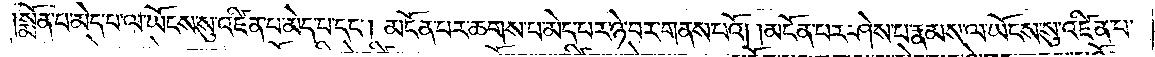སྨོན་པ་མེད་པ་ལ་ཡོངས་སུ་འཛིན་པ་མེད་པ་དང༌། མངོན་པར་ཆགས་པ་མེད་པར་ཉེ་བར་གནས་པའོ། །མངོན་པར་ཤེས་པ་རྣམས་ལ་ཡོངས་སུ་འཛིན་པ་
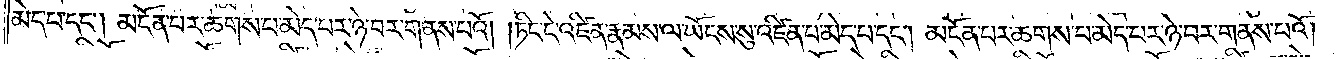མེད་པ་དང༌། མངོན་པར་ཆགས་པ་མེད་པར་ཉེ་བར་གནས་པའོ། །ཏིང་ངེ་འཛིན་རྣམས་ལ་ཡོངས་སུ་འཛིན་པ་མེད་པ་དང༌། མངོན་པར་ཆགས་པ་མེད་པར་ཉེ་བར་གནས་པའོ། །
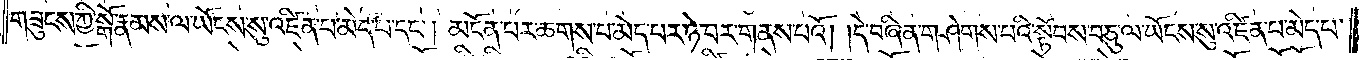གཟུངས་ཀྱི་སྒོ་རྣམས་ལ་ཡོངས་སུ་འཛིན་པ་མེད་པ་དང༌། མངོན་པར་ཆགས་པ་མེད་པར་ཉེ་བར་གནས་པའོ། །དེ་བཞིན་གཤེགས་པའི་སྟོབས་བཅུ་ལ་ཡོངས་སུ་འཛིན་པ་མེད་པ་
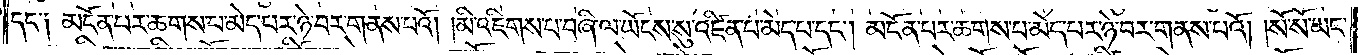དང༌། མངོན་པར་ཆགས་པ་མེད་པར་ཉེ་བར་གནས་པའོ། །མི་འཇིགས་པ་བཞི་ལ་ཡོངས་སུ་འཛིན་པ་མེད་པ་དང༌། མངོན་པར་ཆགས་པ་མེད་པར་ཉེ་བར་གནས་པའོ། །སོ་སོ་ཡང་
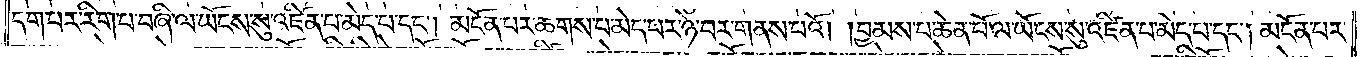དག་པར་རིག་པ་བཞི་ལ་ཡོངས་སུ་འཛིན་པ་མེད་པ་དང༌། མངོན་པར་ཆགས་པ་མེད་པར་ཉེ་བར་གནས་པའོ། །བྱམས་པ་ཆེན་པོ་ལ་ཡོངས་སུ་འཛིན་པ་མེད་པ་དང༌། མངོན་པར་
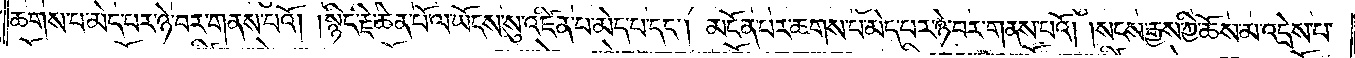ཆགས་པ་མེད་པར་ཉེ་བར་གནས་པའོ། །སྙིང་རྗེ་ཆེན་པོ་ལ་ཡོངས་སུ་འཛིན་པ་མེད་པ་དང༌། མངོན་པར་ཆགས་པ་མེད་པར་ཉེ་བར་གནས་པའོ། །སངས་རྒྱས་ཀྱི་ཆོས་མ་འདྲེས་པ་
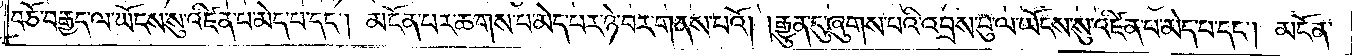བཅོ་བརྒྱད་ལ་ཡོངས་སུ་འཛིན་པ་མེད་པ་དང༌། མངོན་པར་ཆགས་པ་མེད་པར་ཉེ་བར་གནས་པའོ། །རྒྱུན་དུ་ཞུགས་པའི་འབྲས་བུ་ལ་ཡོངས་སུ་འཛིན་པ་མེད་པ་དང༌། མངོན་
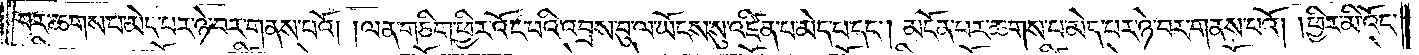བར་ཆགས་པ་མེད་པར་ཉེ་བར་གནས་པའོ། །ལན་གཅིག་ཕྱིར་འོང་བའི་འབྲས་བུ་ལ་ཡོངས་སུ་འཛིན་པ་མེད་པ་དང༌། མངོན་པར་ཆགས་པ་མེད་པར་ཉེ་བར་གནས་པའོ། །ཕྱིར་མི་འོང་
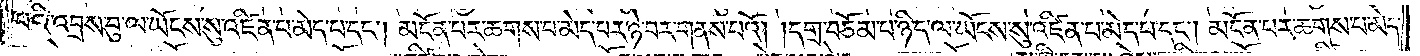བའི་འབྲས་བུ་ལ་ཡོངས་སུ་འཛིན་པ་མེད་པ་དང༌། མངོན་པར་ཆགས་པ་མེད་པར་ཉེ་བར་གནས་པའོ། །དགྲ་བཅོམ་པ་ཉིད་ལ་ཡོངས་སུ་འཛིན་པ་མེད་པ་དང༌། མངོན་པར་ཆགས་པ་མེད་
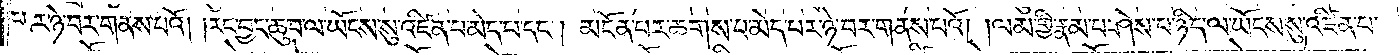པར་ཉེ་བར་གནས་པའོ། །རང་བྱང་ཆུབ་ལ་ཡོངས་སུ་འཛིན་པ་མེད་པ་དང༌། མངོན་པར་ཆགས་པ་མེད་པར་ཉེ་བར་གནས་པའོ། །ལམ་གྱི་རྣམ་པར་ཤེས་པ་ཉིད་ལ་ཡོངས་སུ་འཛིན་པ་
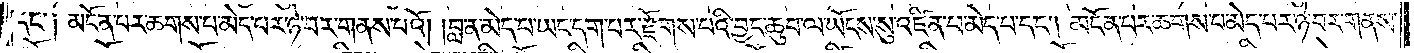དང༌༑ མངོན་པར་ཆགས་པ་མེད་པར་ཉེ་བར་གནས་པའོ། །བླ་ན་མེད་པ་ཡང་དག་པར་རྫོགས་པའི་བྱང་ཆུབ་ལ་ཡོངས་སུ་འཛིན་པ་མེད་པ་དང༌། མངོན་པར་ཆགས་པ་མེད་པར་ཉེ་བར་གནས་
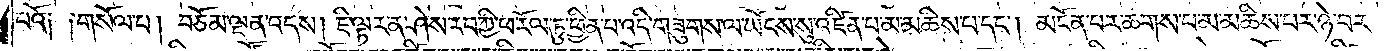པའོ༑ ༑གསོལ་པ། བཅོམ་ལྡན་འདས། ཇི་ལྟར་ན་ཤེས་རབ་ཀྱི་ཕ་རོལ་ཏུ་ཕྱིན་པ་འདི་གཟུགས་ལ་ཡོངས་སུ་འཛིན་པ་མ་མཆིས་པ་དང༌། མངོན་པར་ཆགས་པ་མ་མཆིས་པར་ཉེ་བར་
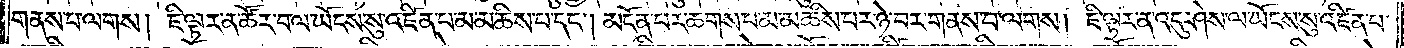གནས་པ་ལགས། ཇི་ལྟར་ན་ཚོར་བ་ལ་ཡོངས་སུ་འཛིན་པ་མ་མཆིས་པ་དང༌། མངོན་པར་ཆགས་པ་མ་མཆིས་པར་ཉེ་བར་གནས་པ་ལགས། ཇི་ལྟར་ན་འདུ་ཤེས་ལ་ཡོངས་སུ་འཛིན་པ་
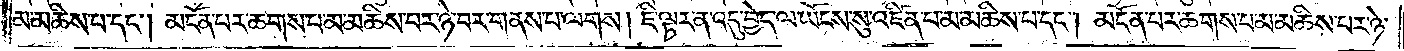མ་མཆིས་པ་དང༌། མངོན་པར་ཆགས་པ་མ་མཆིས་པར་ཉེ་བར་གནས་པ་ལགས། ཇི་ལྟར་ན་འདུ་བྱེད་ལ་ཡོངས་སུ་འཛིན་པ་མ་མཆིས་པ་དང༌། མངོན་པར་ཆགས་པ་མ་མཆིས་པར་ཉེ་
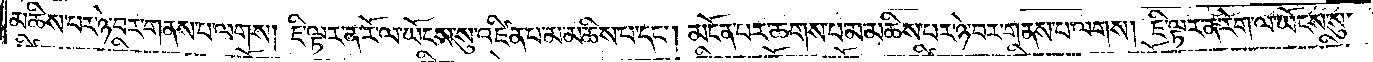མཆིས་པར་ཉེ་བར་གནས་པ་ལགས། ཇི་ལྟར་ན་རོ་ལ་ཡོངས་སུ་འཛིན་པ་མ་མཆིས་པ་དང༌། མངོན་པར་ཆགས་པ་མ་མཆིས་པར་ཉེ་བར་གནས་པ་ལགས། ཇི་ལྟར་ན་རེག་ལ་ཡོངས་སུ་
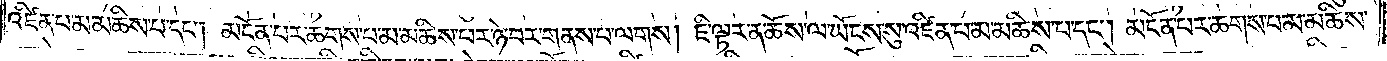འཛིན་པ་མ་མཆིས་པ་དང༌། མངོན་པར་ཆགས་པ་མ་མཆིས་པར་ཉེ་བར་གནས་པ་ལགས། ཇི་ལྟར་ན་ཆོས་ལ་ཡོངས་སུ་འཛིན་པ་མ་མཆིས་པ་དང༌། མངོན་པར་ཆགས་པ་མ་མཆིས་
